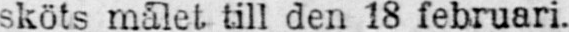sköts målet till den 18 februari.
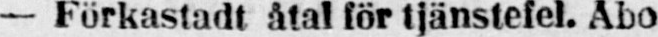— Förkastadt åtal för tjänstefel. Åbo
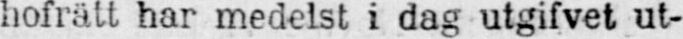hofrätt har medelst i dag utgifvet ut-
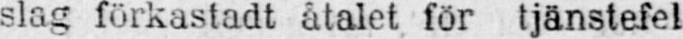slag förkastadt åtalet för tjänstefel
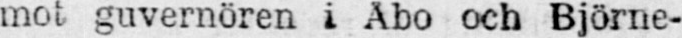mot guvernören i Åbo och Björne-
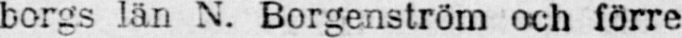borgs län N. Borgenström och förre
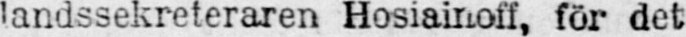landssekreteraren Hosiainoff, för det
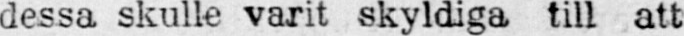dessa skulle varit skyldiga till att
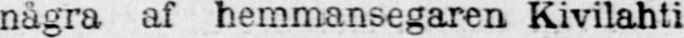några af hemmansegaren Kivilahti
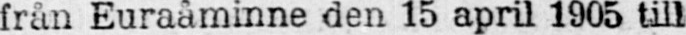från Euraåminne den 15 april 1905 till
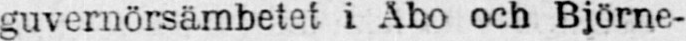guvernörsämbetet i Åbo och Björne-
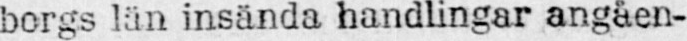borgs län insända handlingar angåen-
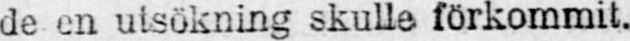de en utsökning skulle förkommit.
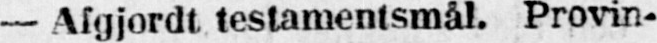— Afgjordt testamentsmål. Provin-
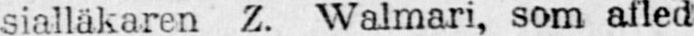sialläkaren Z. Walmari, som afled
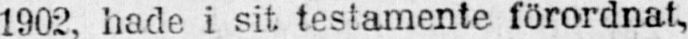1902, hade i sit testamente förordnat,
